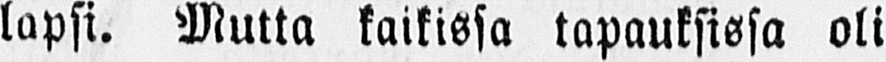lapsi. Mutta kaikissa tapauksissa oli
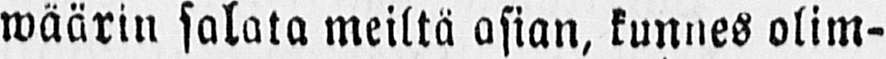wäärin salata meiltä asian, kunnes olim-
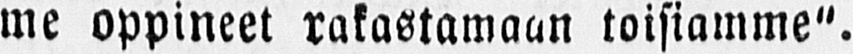me oppineet rakastamaan toisiamme".
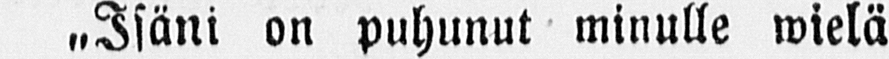˶Isäni on puhunut minulle wielä
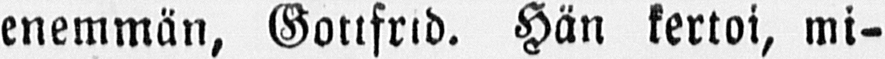enemmän, Gottfrid. Hän kertoi, mi-
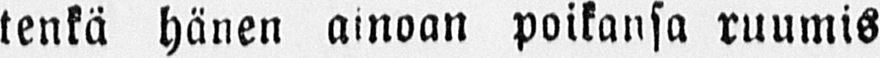tenkä hänen ainoan poikansa ruumis
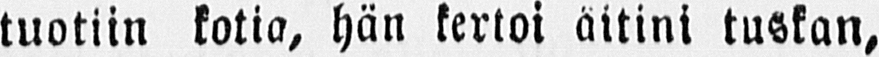tuotiin kotia, hän kertoi äitini tuskan,
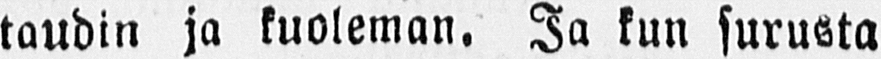taudin ja kuoleman. Ja kun surusta
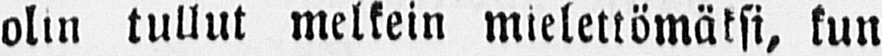olin tullut melkein mielettömäksi, kun
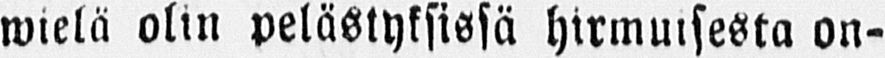wielä olin pelästyksissä hirmuisesta on-
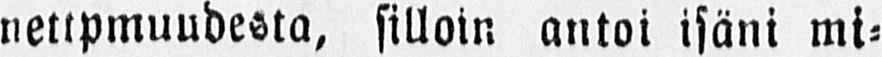nettpmuudesta, silloin antoi isäni mi-
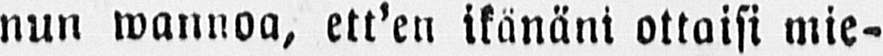nun wannoa, ett'en ikänäni ottaisi mie-
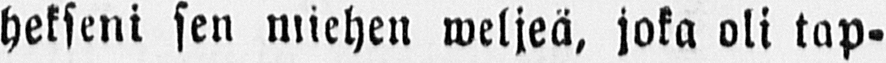hekseni sen miehen weljeä, joka oli tap-
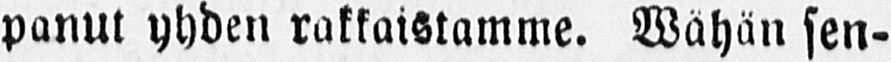panut yhden rakkaistamme. Wähän sen-
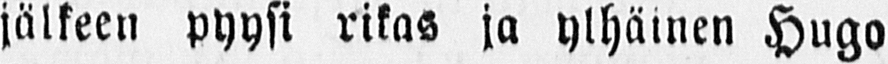jälkeen pyysi rikas ja ylhäinen Hugo
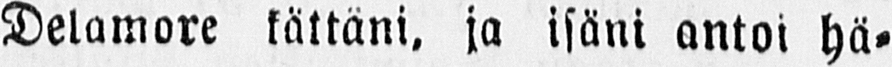Delamore kättäni, ja isäni antoi hä-
